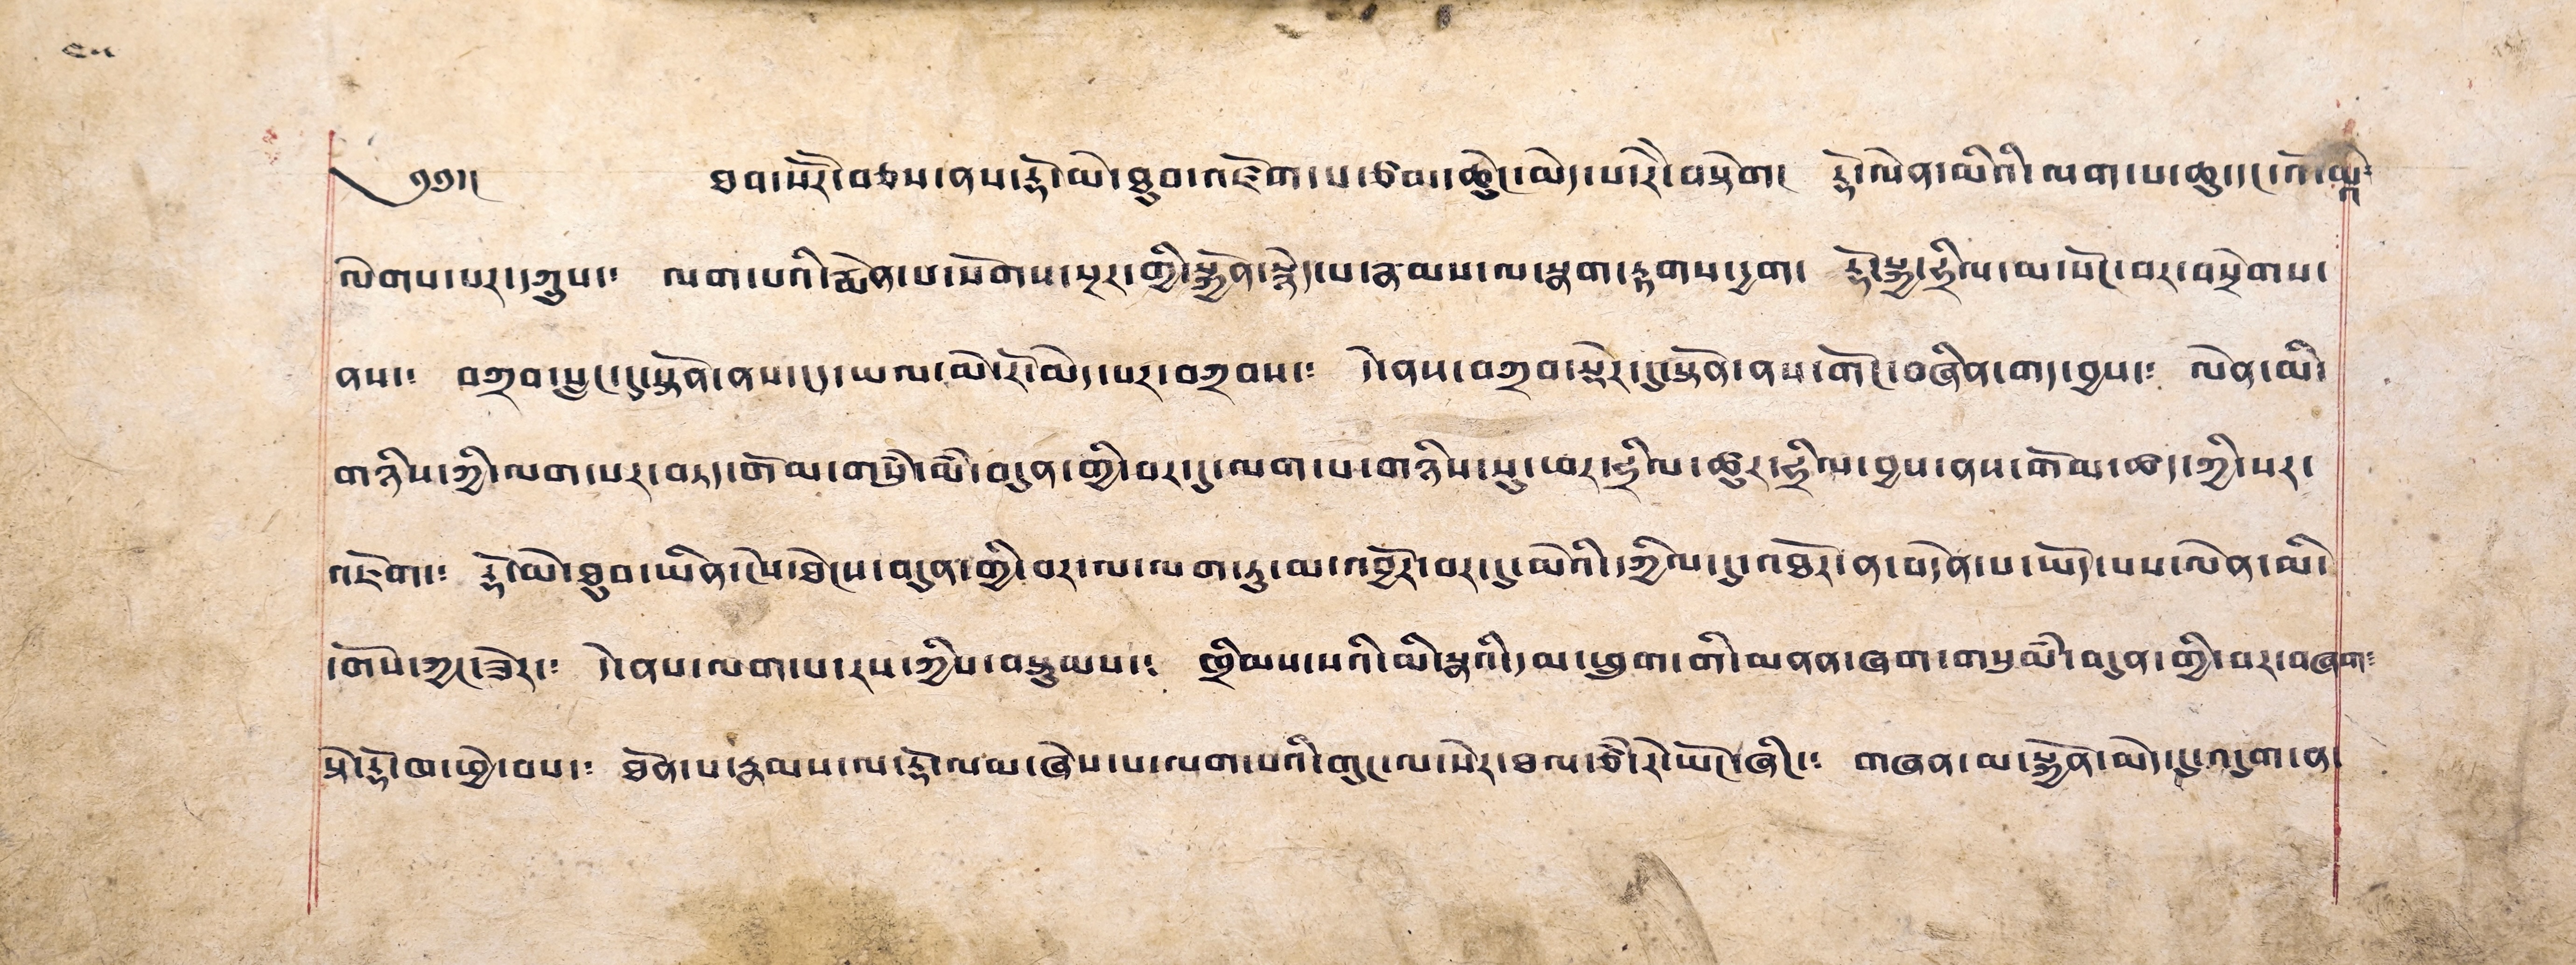༄༅།། ཐབ་སོ་སོར་བཅས་ནས་རྡོ་མེ་ཐུབ་འཛོག་པ་ཙབ་ཆེུང་མེད་པ་རེ་རེ་བསྟེག་༴ རྡོ་ལེན་མིའི་ལག་པ་ཆུ་དང་འོ་མའི༴
ལེགས་པར་དཀྲུས་༴ ལག་པའི་རྨེན་པ་སོགས་སྔར་གྱི་སྐྱོན་སྙེད་པ་རྣམས་ལ་སྣག་རྟགས་དྱག་༴ རྡོ་སྐྱ་ཧྲིལ་མ་སོང་བར་བསྲེགས་
ནས་༴ བཀྲབ་སླང་དུ་སྟོན་ནས་ངད་ཡལ་མེ་རོ་མེད་པར་བཀྲབས་༴ དེ་ནས་བཀྲབ་སྡེར་བསྟོན་ནས་གོང་བཞིན་གད་བྱས་༴ ལེན་མི་
གཉིས་ཀྱི་ལག་པར་བཏད་གོམ་གསུཾ་མམ་བདུན་གྱི་བར་དུ་ལག་པ་གཉིས་སུ་ཕར་ཧྲིལ་ཚུར་ཧྲིལ་བྱས་ནས་གོམ་ཚད་ཀྱི་སར་
འཇོག་༴ རྡོ་མེ་ཐུབ་ཡིན་ངེས་ཐེངས་བདུན་གྱི་བར་ལ་ལག་ཏུ་མ་འབྱོར་བར་དུ་མེའི་དཀྱིལ་དུ་འཐོར་ན་བདེན་པ་ཡོད་པས་ལེན་མི་
དགོས་ཀྱང་ཟེར་༴ དེ་ནས་ལག་པ་རས་ཀྱིས་བསྟུམས་༴ ཁྲིམས་སའི་མི་སྣའི་དམ་ཕྲུག་གི་མནན་ཞག་གསུམ་མམ་བདུན་གྱི་བར་བཞག༴
སྟེ་རྡོ་ཁ་ཕྱེ་བས་༴ ཐོན་པ་རྣམས་ལ་རྡོ་ལམ་ཞེས་པ་ལག་པའི་གུང་ལ་སེར་ཐལ་ཙམ་རེ་ཡོང་ཞིང་༴ གཞན་མ་སྐྱོན་མེད་དུ་འདུག་ན་
